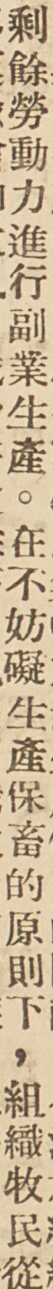剩餘勞動力進行副業生產。在不妨礙生產保畜的原則下，組織牧民從
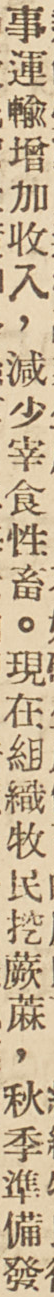事運輸增加收入，減少宰食牲畜。現在組織牧民挖蕨蔴，秋季準備發
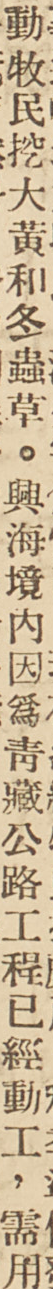動牧民挖大黃和冬蟲草。興海境內因爲青藏公路工程已經動工，需用
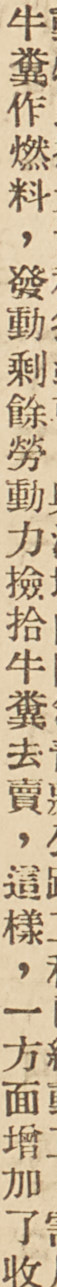牛糞作燃料，發動剩餘勞動力撿拾牛糞去賣，這樣，一方面增加了收
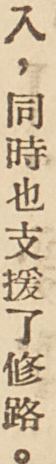入，同時也支援了修路。
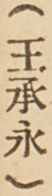（王承永）
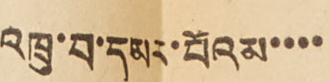འཁྲུ་བ་དམར་པོའམ་་་་
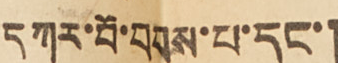དཀར་བོ་བབས་པ་དང་།
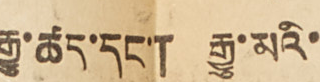རྒྱུ་ཚད་དང་། རྒྱུ་མའི་
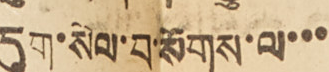དུག་སེལ་བ་སོགས་ལ་་་
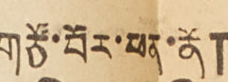གཙོ་བོར་ཕན་ནོ།
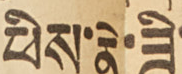ཕིས་ནེ་ཟི་
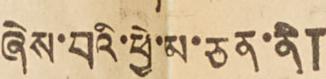ཞེས་པའི་ཕྱེ་མ་ཅན་ནི།
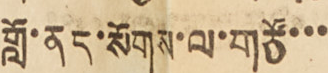གློ་ནད་སོགས་ལ་གཙོ་་་
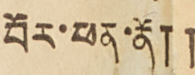བོར་ཕན་ནོ༎
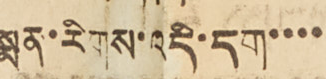སྨན་རིགས་འདི་དག་་་་
